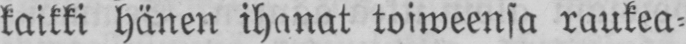kaikki hänen ihanat toiweensa raukea-
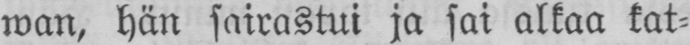wan, hän sairastui ja sai alkaa kat-
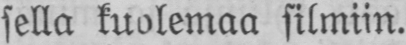sella kuolemaa silmiin.
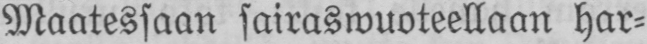Maatessaan sairaswuoteellaan har-
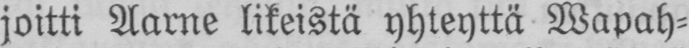joitti Aarne likeistä yhteyttä Wapah-
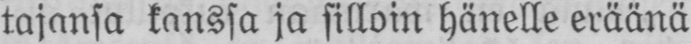tajansa kanssa ja silloin hänelle eräänä
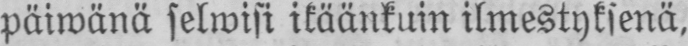päiwänä selwisi ikäänkuin ilmestyksenä,
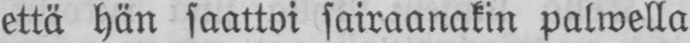että hän saattoi sairaanakin palwella
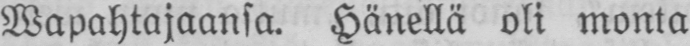Wapahtajaansa. Hänellä oli monta
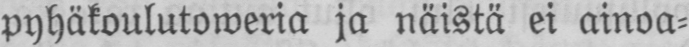pyhäkoulutoweria ja näistä ei ainoa-
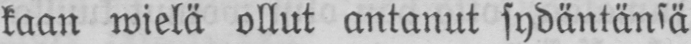kaan wielä ollut antanut sydäntänsä
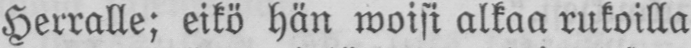Herralle; eikö hän woisi alkaa rukoilla
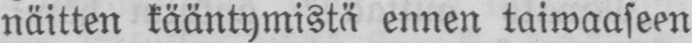näitten kääntymistä ennen taiwaaseen
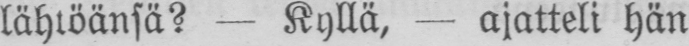lähtöänsä? — Kyllä, — ajatteli hän
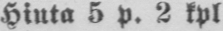Hinta 5 P. 2 kpl.
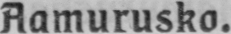Aamurusko.
